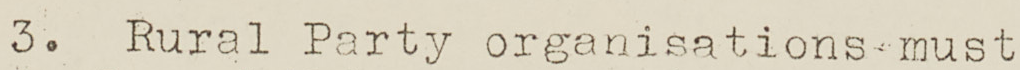3. Rural Party organisations must
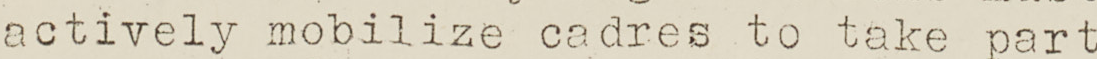actively mobilize cadres to take part
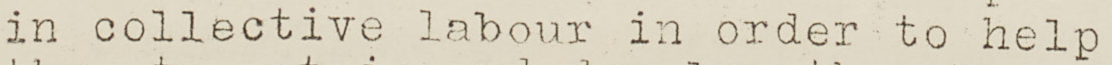in collective labour in order to help
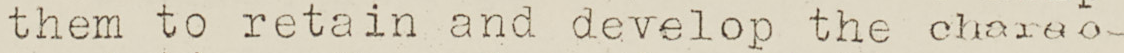them to retain and develop the charac-
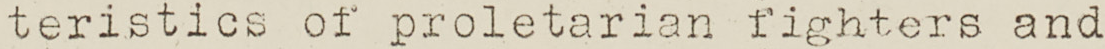teristics of proletarian fighters and
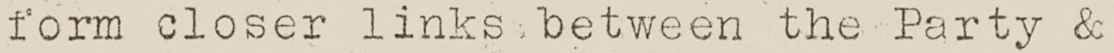form closer links between the Party &
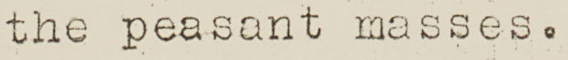the peasant masses.
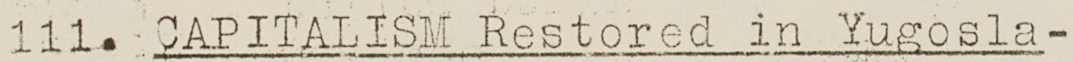111. CAPITALISM Restored in Yugosla-
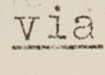via
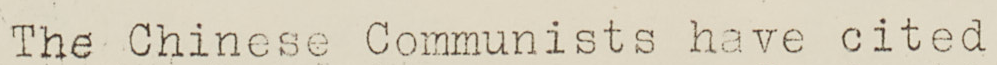The Chinese Communists have cited
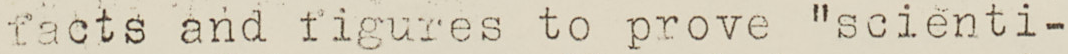facts and figures to prove "scienti-
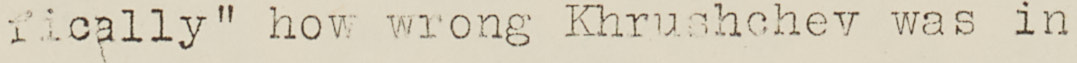fically" how wrong Krushchev was in
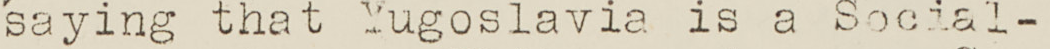saying that Yugoslavia is a Social-
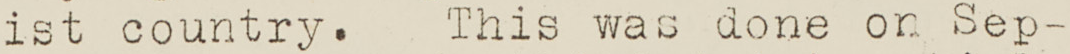ist country. This was done on Sep-
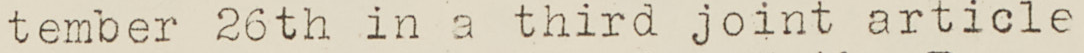tember 26th in a third joint article
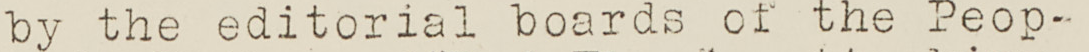by the editorial boards of the Peop-
